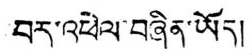བར་འཕེལ་བཞིན་ཡོད།
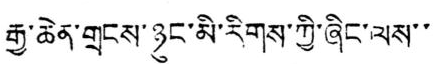རྒྱ་ཆེན་གྲགས་ཉུང་མི་རིགས་ཀྱི་ཞིང་ལས་་
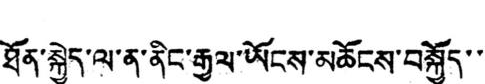ཐོན་སྐྱེད་ལ་ན་ནིང་རྒྱལ་ཡོངས་མཆོངས་བསྐྱོད་་་
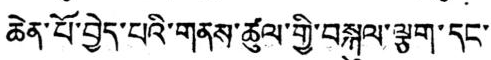ཆེན་པོ་བྱེད་པའི་གནས་ཚུལ་གྱི་བསྐུལ་ལྕག་དང་་
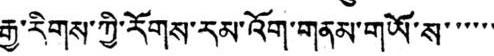རྒྱ་རིགས་ཀྱི་རོགས་རམ་འོག་གནམ་གཡོ་ས་་་་་་
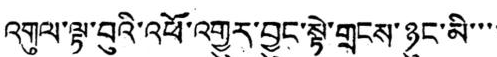འགུལ་ལྟ་བུའི་འཕོ་འགྱུར་བྱུང་སྟེ་གྲངས་ཉུང་མི་་་་
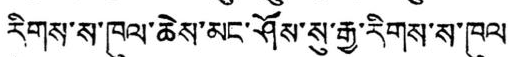རིགས་ས་ཁུལ་ཆེས་མང་ཤོས་སུ་རྒྱ་རིགས་ས་ཁུལ
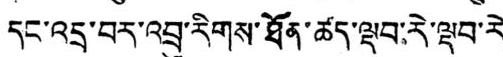དང་འདྲ་བར་འབྲུ་རིགས་ཐོན་ཚད་ལྡབ་རེ་ལྡབ་རེ
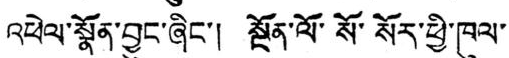འཕེལ་སྣོན་བྱུང་ཞིང་། སྔོན་ལོ་སོ་སོར་ཕྱི་ཁུལ་
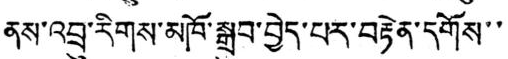ནས་འབྲུ་རིགས་མཁོ་སྒྲུབ་བྱེད་པར་བརྟེན་དགོས་་
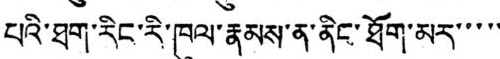པའི་ཐག་རིང་རི་ཁུལ་རྣམས་ན་ནིང་ཐོག་མར་་་་་
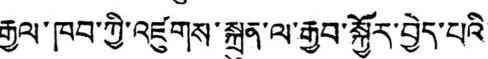རྒྱལ་ཁབ་ཀྱི་འཛུགས་སྐྲུན་ལ་རྒྱབ་སྐྱོར་བྱེད་པའི་
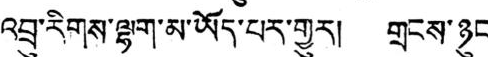འབྲུ་རིགས་ལྷག་མ་ཡོད་པར་གྱུར། གྲངས་ཉུང་
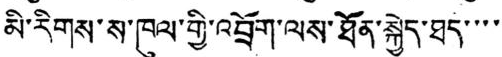མི་རིགས་ས་ཁུལ་གྱི་འབྲོག་ལས་ཐོན་སྐྱེད་ཐད་་་་
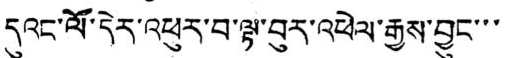དུའང་ལོ་དེར་འཕུར་བ་ལྟ་བུར་འཕེལ་རྒྱས་བྱུང་་་
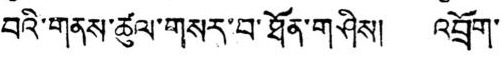བའི་གནས་ཚུལ་གསར་བ་ཐོན་གཤིས། འབྲོག་
